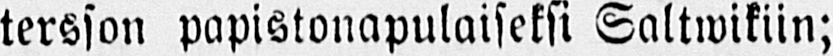tersson papistonapulaiseksi Saltwikiin;
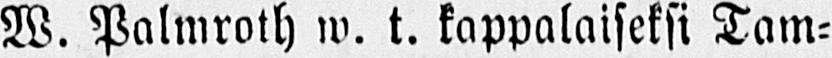W. Palmroth w. t. kappalaiseksi Tam-
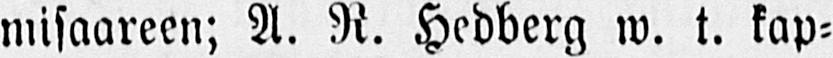misaareen; A. R. Hedberg w. t. kap-
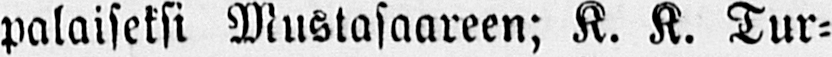palaiseksi Mustasaareen; K. K. Tur-
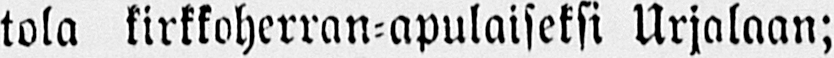tola kirkkoherran-apulaiseksi Urjalaan;
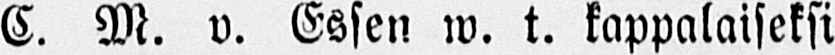C. M. v. Essen w. t. kappalaiseksi
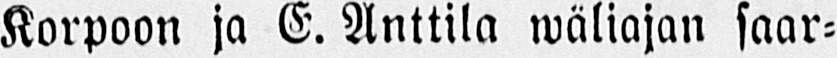Korpoon ja E. Anttila wäliajan saar-
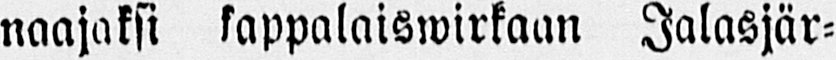naajaksi kappalaiswirkaan Jalasjär-
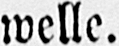welle.
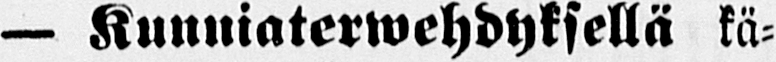— Kunniaterwehdyksellä kä-
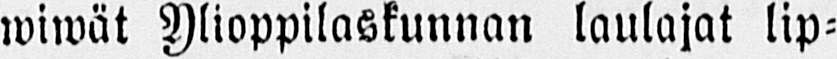wiwät Ylioppilaskunnan laulajat lip-
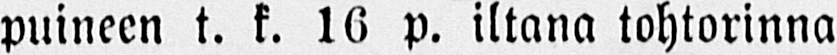puineen t. k. 16 p. iltana tohtorinna
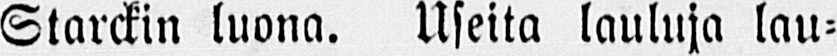Starckin luona. Useita lauluja lau-
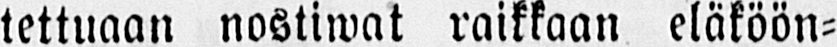tettuaan nostiwat raikkaan eläköön-
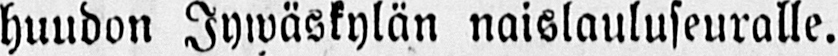huudon Jywäskylän naislauluseuralle.
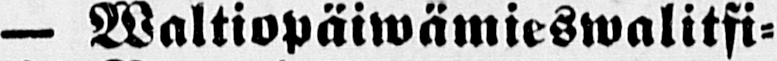— Waltiopäiwämieswalitsi-
